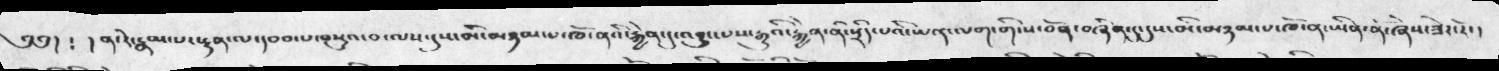༄༅།  །ན་རེ་རྣམ་པར་རྟན་ལ་དབབ་པ་བསྡུའ་བ་ལས་དུས་མི་མཉམ་པ་ཁོ་ནའི་རྐྱེན་དུ་འབྱུང་པས་རྒྱུའི་རྐྱེན་ནི་སྲིད་པའི་ཡན་ལག་གི་ས་བོན་བཞིན་དུ་དུས་མི་མཉམ་པ་ཁོ་ན་ཡིན་ནོ་ཞེས་ཟེར་རོ་།
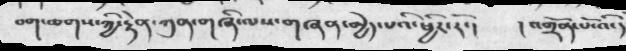བག་ཆགས་ཀྱི་རྟེན་ཀུན་གཞི་ལས་གཞན་མྱེད་པའི་ཕྱིར་རོ་།     །འགྲོ་པོ་འི་དེ
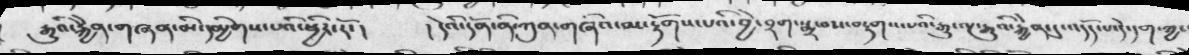རྒྱུའི་རྐྱེན་གཞན་མི་དམྱིགས་པའི་ཕྱིར་རོ་།   །དེའི་དོན་ནི་ཀུན་གཞིའ་མ་རྟགས་པའི་བྱེ་བྲག་སྨྲ་བས་བརྟགས་པའི་རྒྱུ་ལྔ་རྒྱུའི་རྒྱེན་དུ་འདོད་པ་དེ་དག་ཀྱང་
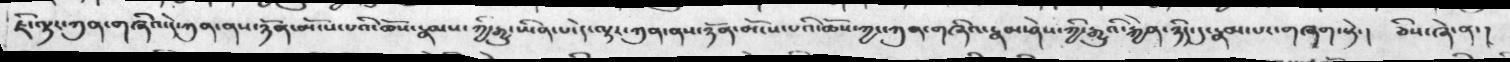ཇི་ལྟར་ཀུན་གཞིའ་དེ་ཀུན་ནས་ཉོན་མོངས་པའི་ཆོས་རྣམས་ཀྱི་རྒྱུ་ཡིན་པ་དེ་ལྟར་ཀུན་ནས་ཉོན་མོངས་པའི་ཆོས་ཀྱང་ཀུན་གཞིའ་རྣམ་ཤེས་ཀྱི་རྒྱུའི་རྐྱེན་ཉིད་དུ་རྣམ་པར་བཞག་སྟེ་།  ཅིས་ཞེ་ན་།
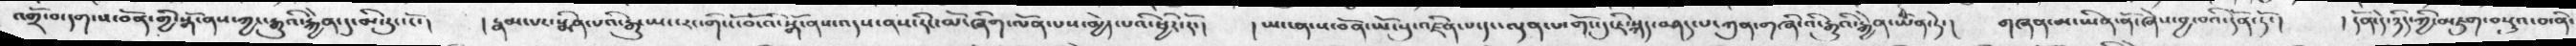འགྲོ་བ་དག་ས་བོན་གྱི་སྒོ་ནས་ཀྱང་རྒྱུའི་རྐྱེན་དུ་མི་རུང་ངོ་།   །རྣམ་པར་སྨིན་པའི་རྒྱུ་ཡང་རང་གི་ངོ་བོ་འི་སྒོ་ནས་འདས་ནས་རིང་མོ་ཞིག་ལོན་པས་མྱེད་པའི་ཕྱིར་རོ་།   ། ཡང་ན་ས་བོན་ཡོངས་སུ་འཛིན་པ་དང་ལྡན་པ་གོང་དུ་ཇི་སྐད་བཤད་པ་ཀུན་གཞི་འི་རྒྱུའི་རྐྱེན་ཡིན་དེ་།  གཞན་མ་ཡིན་ནོ་ཞེས་བྱ་བའི་དོན་ཏོ་།   ། དོན་དེ་ཉིད་ཀྱི་མཇུག་བསྡུའ་བ་ནི་
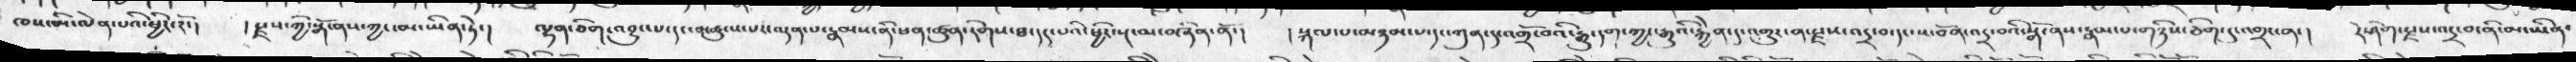ཁས་མི་ལེན་པའི་ཕྱིར་རོ་།  ། སྫས་ཀྱི་སྒོ་ནས་ཀྱང་མ་ཡིན་ཏེ་།   ལྷན་ཅིག་འབྱུང་པ་དང་མཚུངས་པར་ལྡན་པ་རྣམས་ནི་ཕན་ཚུན་རིགས་ཐ་དད་པའི་ཕྱིར་སྔ་མ་བཞིན་ནོ་།   ། སྐལ་པ་མཉམ་པ་དང་ཀུན་དུ་འགྲོ་བའི་རྒྱུ་དག་ཀྱང་རྒྱུའི་རྐྱེན་དུ་འགྱུར་ན་སྫས་འདྲ་བ་དང་ས་བོན་འདྲ་བའི་སྒོ་ནས་རྣམ་པ་གཉིས་ཅིག་འགྲང་ན་།   དེ་ཤིག་སྫས་འདྲ་བ་ནི་མ་ཡིན་
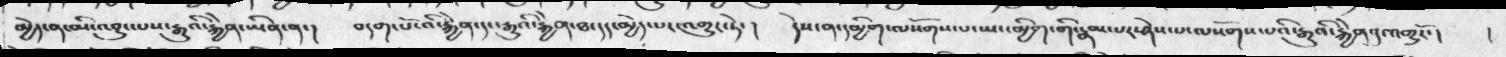མྱེད་ན་མི་འབྱུང་པས་རྒྱུའི་རྐྱེན་ཡིན་ན་།   བདག་པོ་འི་རྐྱེན་དང་རྒྱུའི་རྐྱེན་ཐ་དད་མྱེད་པར་འགྱུར་ཏེ་།    དེས་ན་དམྱིག་ལསོགས་པ་ཡང་མྱིག་གི་རྣམ་པར་ཤེས་པ་ལསོགས་པའི་རྒྱུའི་རྐྱེན་དུ་འགྱུརོ་།   །
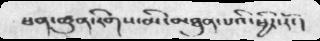ཕན་ཚུན་རིགས་མི་མཐུན་པའི་ཕྱིར་རོ་།
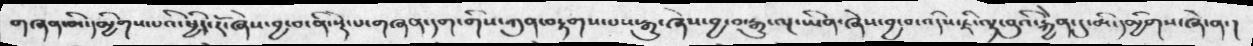གཞན་མི་དམྱིགས་པའི་ཕྱིར་རོ་བྱ་བ་ནི་སྡེ་པ་གཞན་དག་གིས་ཀུན་བཏགས་པས་རྒྱུ་ཞེས་བྱ་རྒྱུ་ལྔ་ཡིན་ཞེས་བྱ་འདིས་ཇི་ལྟ་བུའི་རྐྱེན་དུ་མི་དམྱིགས་ཞེ་ན་།
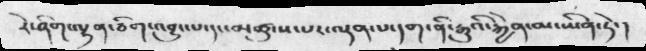རེ་ཞིག་ལྷན་ཅིག་འབྱུང་པ་དང་མཚུངས་པར་ལྷན་པ་དག་ནི་རྒྱུའི་རྐྱེན་མ་ཡིན་ཏེ་།
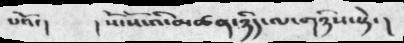པའོ་།             ། སོ་སོ་འི་མཚན་ཉིད་ལ་གཉིས་སྟེ་།
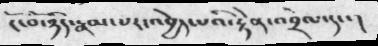ངོ་བོ་ཉིད་རྣམ་པར་འབྱེད་པའི་རྟེན་འབྲེལ་དང་།
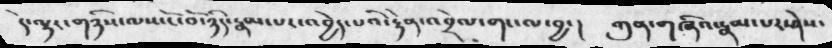དེ་ལྟར་གཉིས་ལས་ངོ་བོ་ཉིད་རྣམ་པར་འབྱེད་པའི་རྟེན་འབྲེལ་གང་ལ་བྱ་།   ཀུན་གཞིའ་རྣམ་པར་ཤེས་
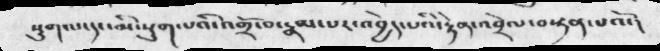སྡུགལ་དང་མི་སྡུག་པའི་འགྲོ་བ་རྣམ་པར་འབྱེད་པའི་རྟེན་འབྲེལ་བསྟན་པའོ་།
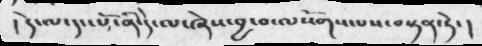། དེ་ལ་དང་པོ་ནི་དེ་ལ་ཞེས་པ་བྱ་བ་ལསོགས་པས་བསྟན་ཏེ་།
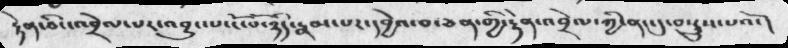རྟེན་ཅིང་འབྲེལ་པར་འབྱུང་པ་ངོ་བོ་ཉིད་རྣམ་པར་དབྱེའ་བ་ཅན་གྱི་རྟེན་འབྲེལ་ཀྱི་ནང་དུ་བསྡུས་པའོ་།
